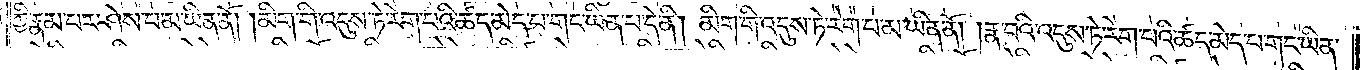ཀྱི་རྣམ་པར་ཤེས་པ་མ་ཡིན་ནོ། །མིག་གི་འདུས་ཏེ་རེག་པའི་ཚད་མེད་པ་གང་ཡིན་པ་དེ་ནི། མིག་གི་འདུས་ཏེ་རེག་པ་མ་ཡིན་ནོ། །རྣ་བའི་འདུས་ཏེ་རེག་པའི་ཚད་མེད་པ་གང་ཡིན་
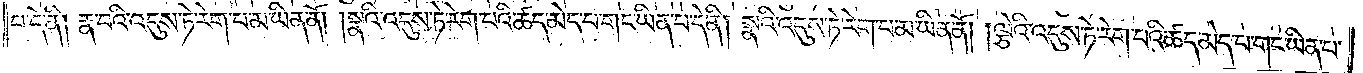པ་དེ་ནི། རྣ་བའི་འདུས་ཏེ་རེག་པ་མ་ཡིན་ནོ། །སྣའི་འདུས་ཏེ་རེག་པའི་ཚད་མེད་པ་གང་ཡིན་པ་དེ་ནི། སྣའི་འདུས་ཏེ་རེག་པ་མ་ཡིན་ནོ། །ལྕེའི་འདུས་ཏེ་རེག་པའི་ཚད་མེད་པ་གང་ཡིན་པ་
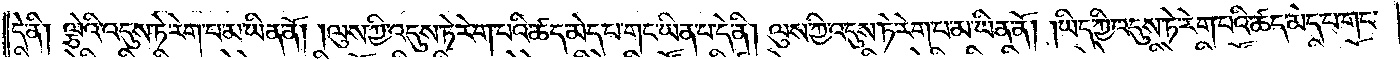དེ་ནི། ལྕེའི་འདུས་ཏེ་རེག་པ་མ་ཡིན་ནོ། །ལུས་ཀྱི་འདུས་ཏེ་རེག་པའི་ཚད་མེད་པ་གང་ཡིན་པ་དེ་ནི། ལུས་ཀྱི་འདུས་ཏེ་རེག་པ་མ་ཡིན་ནོ། །ཡིད་ཀྱི་འདུས་ཏེ་རེག་པའི་ཚད་མེད་པ་གང་
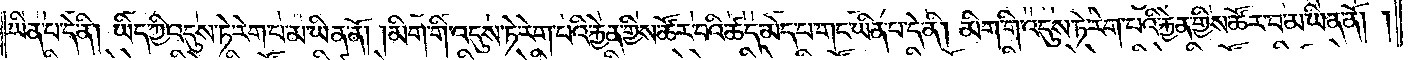ཡིན་པ་དེ་ནི། ཡིད་ཀྱི་འདུས་ཏེ་རེག་པ་མ་ཡིན་ནོ། །མིག་གི་འདུས་ཏེ་རེག་པའི་རྐྱེན་གྱིས་ཚོར་བའི་ཚད་མེད་པ་གང་ཡིན་པ་དེ་ནི། མིག་གི་འདུས་ཏེ་རེག་པའི་རྐྱེན་གྱིས་ཚོར་བ་མ་ཡིན་ནོ། །
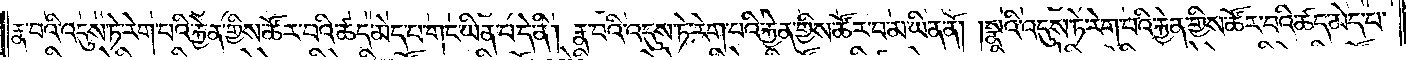རྣ་བའི་འདུས་ཏེ་རེག་པའི་རྐྱེན་གྱིས་ཚོར་བའི་ཚད་མེད་པ་གང་ཡིན་པ་དེ་ནི། རྣ་བའི་འདུས་ཏེ་རེག་པའི་རྐྱེན་གྱིས་ཚོར་བ་མ་ཡིན་ནོ། །སྣའི་འདུས་ཏེ་རེག་པའི་རྐྱེན་གྱིས་ཚོར་བའི་ཚད་མེད་པ་
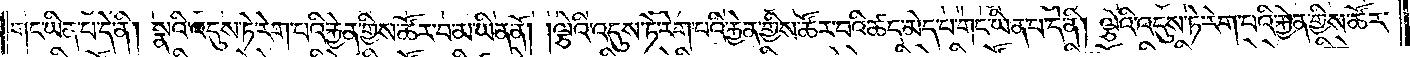གང་ཡིན་པ་དེ་ནི། སྣའི་འདུས་ཏེ་རེག་པའི་རྐྱེན་གྱིས་ཚོར་བ་མ་ཡིན་ནོ། །ལྕེའི་འདུས་ཏེ་རེག་པའི་རྐྱེན་གྱིས་ཚོར་བའི་ཚད་མེད་པ་གང་ཡིན་པ་དེ་ནི། ལྕེའི་འདུས་ཏེ་རེག་པའི་རྐྱེན་གྱིས་ཚོར་
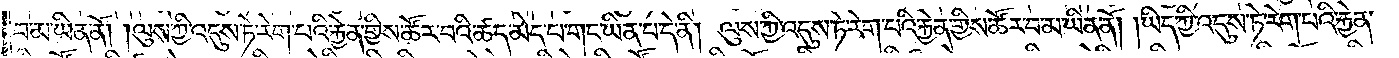བ་མ་ཡིན་ནོ། །ལུས་ཀྱི་འདུས་ཏེ་རེག་པའི་རྐྱེན་གྱིས་ཚོར་བའི་ཚད་མེད་པ་གང་ཡིན་པ་དེ་ནི། ལུས་ཀྱི་འདུས་ཏེ་རེག་པའི་རྐྱེན་གྱིས་ཚོར་བ་མ་ཡིན་ནོ། །ཡིད་ཀྱི་འདུས་ཏེ་རེག་པའི་རྐྱེན་
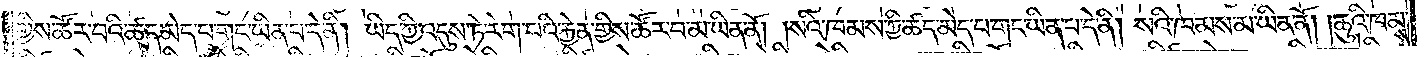གྱིས་ཚོར་བའི་ཚད་མེད་པ་གང་ཡིན་པ་དེ་ནི། ཡིད་ཀྱི་འདུས་ཏེ་རེག་པའི་རྐྱེན་གྱིས་ཚོར་བ་མ་ཡིན་ནོ། །སའི་ཁམས་ཀྱི་ཚད་མེད་པ་གང་ཡིན་པ་དེ་ནི། སའི་ཁམས་མ་ཡིན་ནོ། །ཆུའི་ཁམས་
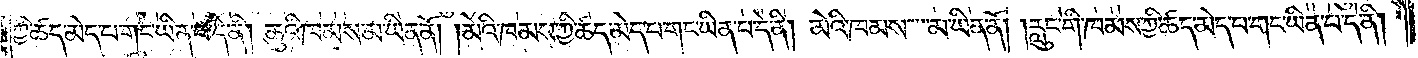ཀྱི་ཚད་མེད་པ་གང་ཡིན་པ་དེ་ནི། ཆུའི་ཁམས་མ་ཡིན་ནོ། །མེའི་ཁམས་ཀྱི་ཚད་མེད་པ་གང་ཡིན་པ་དེ་ནི། མེའི་ཁམས་མ་ཡིན་ནོ། །རླུང་གི་ཁམས་ཀྱི་ཚད་མེད་པ་གང་ཡིན་པ་དེ་ནི།
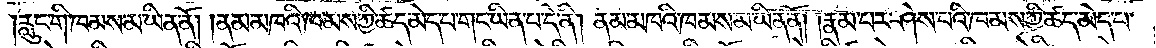རླུང་གི་ཁམས་མ་ཡིན་ནོ། །ནམ་མཁའི་ཁམས་ཀྱི་ཚད་མེད་པ་གང་ཡིན་པ་དེ་ནི། ནམ་མཁའི་ཁམས་མ་ཡིན་ནོ། །རྣམ་པར་ཤེས་པའི་ཁམས་ཀྱི་ཚད་མེད་པ་
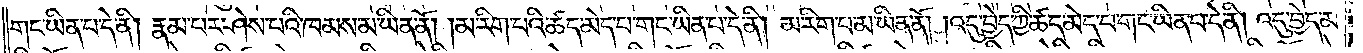གང་ཡིན་པ་དེ་ནི། རྣམ་པར་ཤེས་པའི་ཁམས་མ་ཡིན་ནོ། །མ་རིག་པའི་ཚད་མེད་པ་གང་ཡིན་པ་དེ་ནི། མ་རིག་པ་མ་ཡིན་ནོ། །འདུ་བྱེད་ཀྱི་ཚད་མེད་པ་གང་ཡིན་པ་དེ་ནི། འདུ་བྱེད་མ་
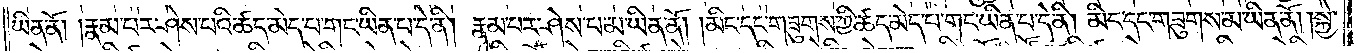ཡིན་ནོ། །རྣམ་པར་ཤེས་པའི་ཚད་མེད་པ་གང་ཡིན་པ་དེ་ནི། རྣམ་པར་ཤེས་པ་མ་ཡིན་ནོ། །མིང་དང་གཟུགས་ཀྱི་ཚད་མེད་པ་གང་ཡིན་པ་དེ་ནི། མིང་དང་གཟུགས་མ་ཡིན་ནོ། །སྐྱེ་
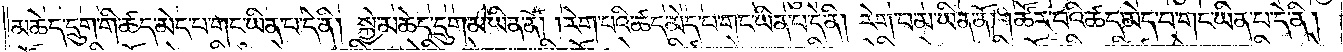མཆེད་དྲུག་གི་ཚད་མེད་པ་གང་ཡིན་པ་དེ་ནི། སྐྱེ་མཆེད་དྲུག་མ་ཡིན་ནོ། །རེག་པའི་ཚད་མེད་པ་གང་ཡིན་པ་དེ་ནི། རེག་པ་མ་ཡིན་ནོ། །ཚོར་བའི་ཚད་མེད་པ་གང་ཡིན་པ་དེ་ནི།
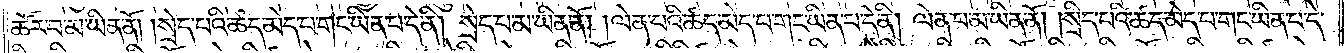ཚོར་བ་མ་ཡིན་ནོ། །སྲེད་པའི་ཚད་མེད་པ་གང་ཡིན་པ་དེ་ནི། སྲེད་པ་མ་ཡིན་ནོ། །ལེན་པའི་ཚད་མེད་པ་གང་ཡིན་པ་དེ་ནི། ལེན་པ་མ་ཡིན་ནོ། །སྲིད་པའི་ཚད་མེད་པ་གང་ཡིན་པ་དེ་
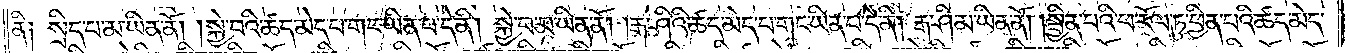ནི༑ སྲིད་པ་མ་ཡིན་ནོ། །སྐྱེ་བའི་ཚད་མེད་པ་གང་ཡིན་པ་དེ་ནི། སྐྱེ་བ་མ་ཡིན་ནོ། །རྒ་ཤིའི་ཚད་མེད་པ་གང་ཡིན་པ་དེ་ནི། རྒ་ཤི་མ་ཡིན་ནོ། །སྦྱིན་པའི་ཕ་རོལ་ཏུ་ཕྱིན་པའི་ཚད་མེད་
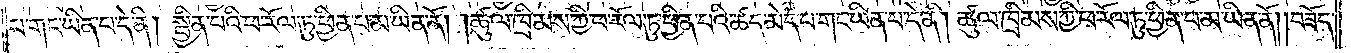པ་གང་ཡིན་པ་དེ་ནི། སྦྱིན་པའི་ཕ་རོལ་ཏུ་ཕྱིན་པ་མ་ཡིན་ནོ། །ཚུལ་ཁྲིམས་ཀྱི་ཕ་རོལ་ཏུ་ཕྱིན་པའི་ཚད་མེད་པ་གང་ཡིན་པ་དེ་ནི། ཚུལ་ཁྲིམས་ཀྱི་ཕ་རོལ་ཏུ་ཕྱིན་པ་མ་ཡིན་ནོ། །བཟོད་
